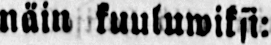näin kuuluwiksi:
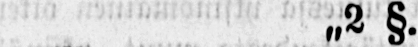„2 §.
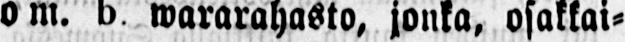Mom. b. wararahasto, jonka, osakkai-
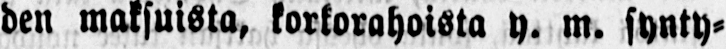den maksuista, korkorahoista y. m. synty-
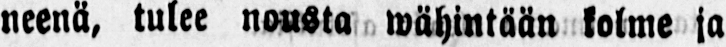neenä, tulee nousta wähintään kolme ja
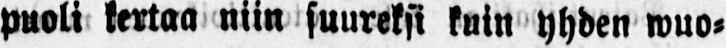puoli kertaa niin suureksi kuin yhden wuo-
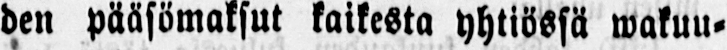den pääsömaksut kaikesta yhtiössä wakuu-
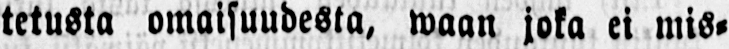tetusta omaisuudesta, waan joka ei mis-
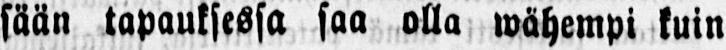sään tapauksessa saa olla wähempi kuin
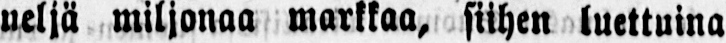neljä miljonaa markkaa, siihen luettuina
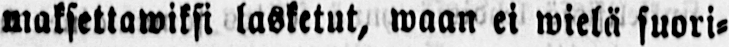maksettawiksi lasketut, waan ei wielä suori-
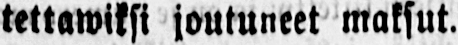tettawiksi joutuneet maksut.
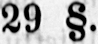29 §.
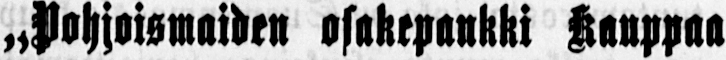„Pohjoismaiden osakepankki Kauppaa
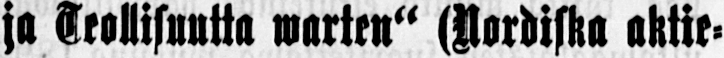ja Teollisuutta warten" (Nordiska aktie-
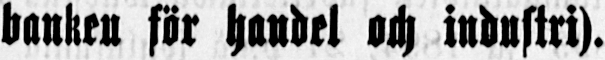banken för handel och industri).
